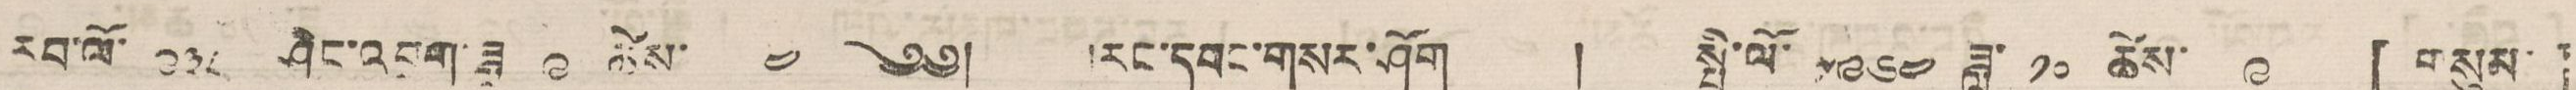རབ་ལོ་ ༩༣༨ ཤིང་འབྲུག་ཟླ ༩ ཚེས་ ༤ ༄༅། །རང་དབང་གསར་ཤོག ། སྤྱི་ལོ་ ༡༩༦༤ ཟླ་ ༡༠ ཚེས་ ༩ [ གསུམ་ ]
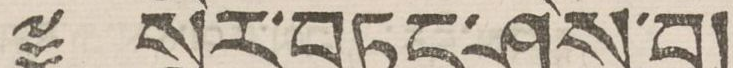༈ སྤྱིར་་བཏང་ཤེས་བྱ།
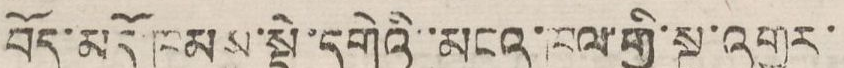བོད་མདོ་ཁམས་སྡེ་དགེའི་མངའ་ཁུལ་གྱི་སྔ་འགྱུར་
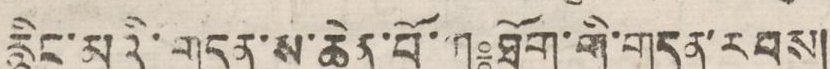རྙིང་མའི་གདན་ས་ཆེན་པོ་ཀ༔ཐོག་གི་གདན་རབས།
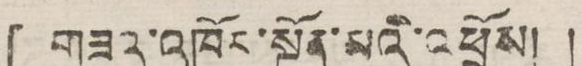[ གཟའ་འཁོར་སྔོན་མའི་འཕྲོས། །
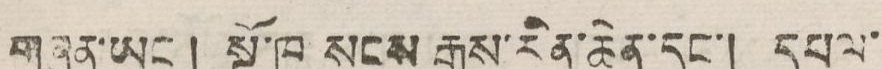གཞན་ཡང ། སྔོ་ཁ སངས་ རྒྱས་རིན་ཆེན་དང་། དཔལ་
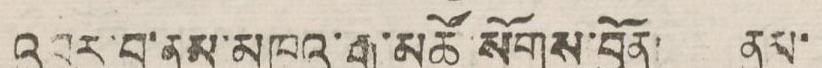འབར་བ་ནམ་མཁའ་རྒྱ་མཚོ སོགས་བྱོན། ནམ་
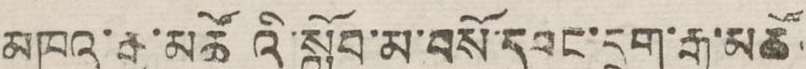མཁའ་རྒྱ་མཚོའི་སློབ་མ་བསོ་དབང་དྲག་རྒྱ་མཚོ་
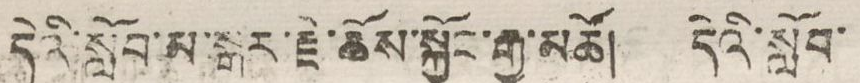དེའི་སློབ་མ་སྒར་རྗེ་ཆོས་སྐྱོང་རྒྱ་མཚོ། དེའི་སློབ་
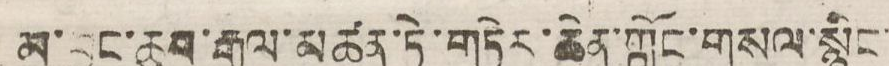མ་བྱང་ཆུབ་རྒྱལ་མཚན་ཏེ་གཏེར་ཆེན་གློང་གསལ་སྙིང་
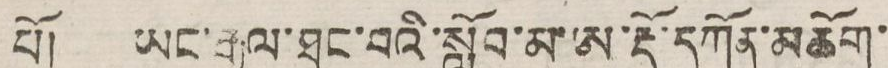པོ། ཡང་རྒྱལ་ཐང་བའི་སློབ་མ་ཨ་རྡོ་དཀོན་མཆོག་
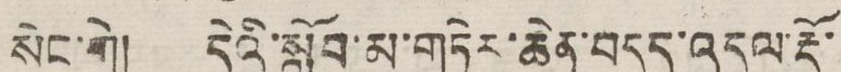སེང་གེ། དེའི་སློབ་མ་གཏེར་ཆེན་བདུད་འདུལ་རྡོ་
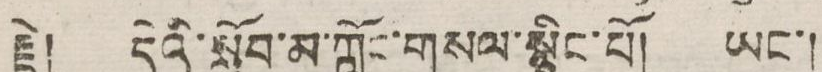རྗེ། དེའི་སློབ་མ་ཀློང་གསལ་སྙིང་པོ། ཡང་།
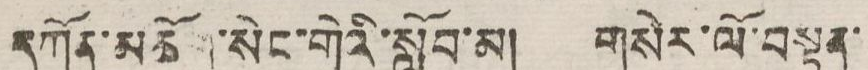དཀོན་མཆོག་སེང་གེའི་སློབ་མ། གསེར་ལོ་བསྟན་
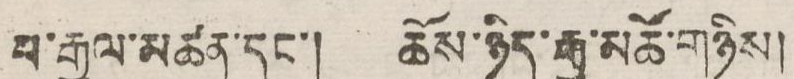པ་རྒྱལ་མཚན་དང་། ཆོས་ཉིད་རྒྱ་མཚོ་གཉིས།
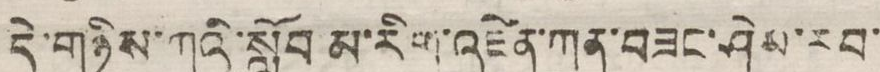དེ་གཉིས་ཀའི་སློབ མ་རིག་འཛིན་ཀུན་བཟང་ཤེས་རབ་
